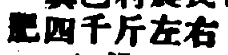肥四千斤左右
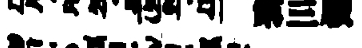པར་ངོས་གསུམ་པ། 第三版
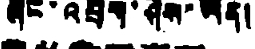ཞིང་འབྲོག་ཤེས་ཡོན།
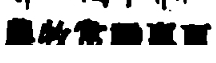農牧常識專頁
